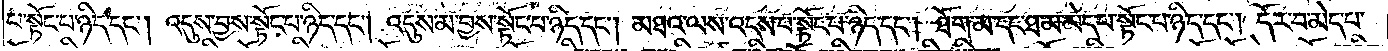པ་སྟོང་པ་ཉིད་དང༌། འདུས་བྱས་སྟོང་པ་ཉིད་དང༌། འདུས་མ་བྱས་སྟོང་པ་ཉིད་དང༌། མཐའ་ལས་འདས་པ་སྟོང་པ་ཉིད་དང༌། ཐོག་མ་དང་ཐ་མ་མེད་པ་སྟོང་པ་ཉིད་དང༌། དོར་བ་མེད་པ་
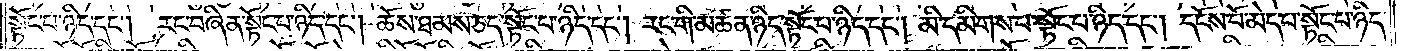སྟོང་པ་ཉིད་དང༌། རང་བཞིན་སྟོང་པ་ཉིད་དང༌། ཆོས་ཐམས་ཅད་སྟོང་པ་ཉིད་དང༌། རང་གི་མཚན་ཉིད་སྟོང་པ་ཉིད་དང༌། མི་དམིགས་པ་སྟོང་པ་ཉིད་དང༌། དངོས་པོ་མེད་པ་སྟོང་པ་ཉིད་
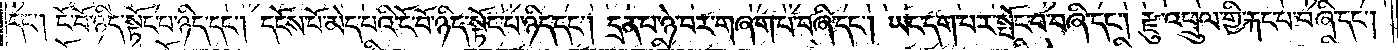དང༌། ངོ་བོ་ཉིད་སྟོང་པ་ཉིད་དང༌། དངོས་པོ་མེད་པའི་ངོ་བོ་ཉིད་སྟོང་པ་ཉིད་དང༌། དྲན་པ་ཉེ་བར་གཞག་པ་བཞི་དང༌། ཡང་དག་པར་སྤོང་བ་བཞི་དང༌། རྫུ་འཕྲུལ་གྱི་རྐང་པ་བཞི་དང༌།
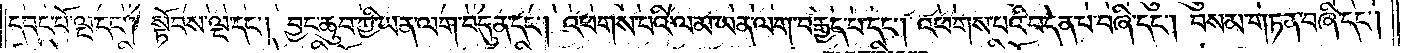དབང་པོ་ལྔ་དང༌། སྟོབས་ལྔ་དང༌། བྱང་ཆུབ་ཀྱི་ཡན་ལག་བདུན་དང༌། འཕགས་པའི་ལམ་ཡན་ལག་བརྒྱད་པ་དང༌། འཕགས་པའི་བདེན་པ་བཞི་དང༌། བསམ་གཏན་བཞི་དང༌།
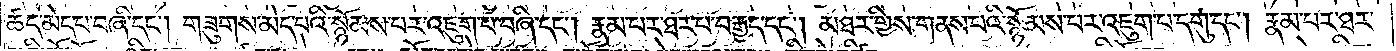ཚད་མེད་པ་བཞི་དང༌། གཟུགས་མེད་པའི་སྙོམས་པར་འཇུག་པ་བཞི་དང༌། རྣམ་པར་ཐར་པ་བརྒྱད་དང༌། མཐར་གྱིས་གནས་པའི་སྙོམས་པར་འཇུག་པ་དགུ་དང༌། རྣམ་པར་ཐར་
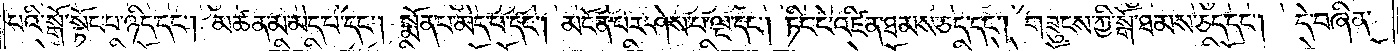པའི་སྒོ་སྟོང་པ་ཉིད་དང༌། མཚན་མ་མེད་པ་དང༌། སྨོན་པ་མེད་པ་དང༌། མངོན་པར་ཤེས་པ་ལྔ་དང༌། ཏིང་ངེ་འཛིན་ཐམས་ཅད་དང༌། གཟུངས་ཀྱི་སྒོ་ཐམས་ཅད་དང༌། དེ་བཞིན་
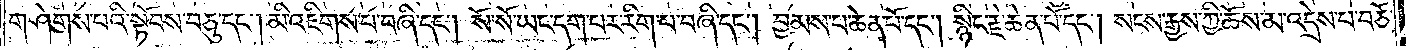གཤེགས་པའི་སྟོབས་བཅུ་དང༌། མི་འཇིགས་པ་བཞི་དང༌། སོ་སོ་ཡང་དག་པར་རིག་པ་བཞི་དང༌། བྱམས་པ་ཆེན་པོ་དང༌། སྙིང་རྗེ་ཆེན་པོ་དང༌། སངས་རྒྱས་ཀྱི་ཆོས་མ་འདྲེས་པ་བཅོ་
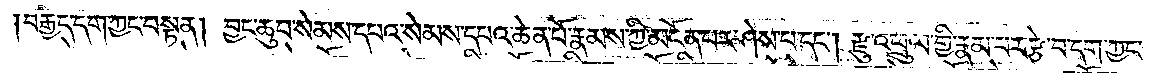བརྒྱད་དག་ཀྱང་བསྟན། བྱང་ཆུབ་སེམས་དཔའ་སེམས་དཔའ་ཆེན་པོ་རྣམས་ཀྱི་མངོན་པར་ཤེས་པ་དང༌། རྫུ་འཕྲུལ་གྱི་རྣམ་པར་རྩེ་བ་དག་ཀྱང་
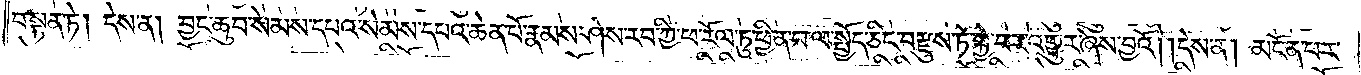བསྟན་ཏེ། དེས་ན། བྱང་ཆུབ་སེམས་དཔའ་སེམས་དཔའ་ཆེན་པོ་རྣམས་ཤེས་རབ་ཀྱི་ཕ་རོལ་ཏུ་ཕྱིན་པ་ལ་སྤྱོད་ཅིང༌། བརྫུས་ཏེ་སྐྱེ་བར་འགྱུར་ཞེས་བྱའོ། །དེས་ན། མངོན་པར་
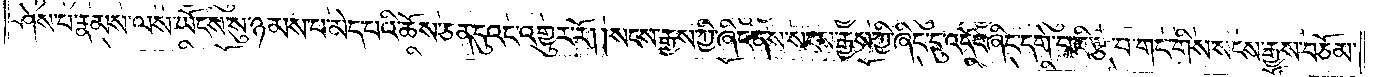ཤེས་པ་རྣམས་ལས་ཡོངས་སུ་ཉམས་པ་མེད་པའི་ཆོས་ཅན་དུའང་འགྱུར་རོ། །སངས་རྒྱས་ཀྱི་ཞིང་ནས་སངས་རྒྱས་ཀྱི་ཞིང་དུ་འདོང་ཞིང་དགེ་བའི་རྩ་བ་གང་གིས་སངས་རྒྱས་བཅོམ་
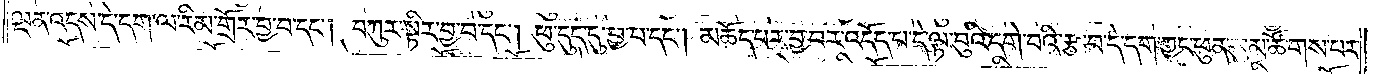ལྡན་འདས་དེ་དག་ལ་རིམ་གྲོར་བྱ་བ་དང༌། བཀུར་སྟིར་བྱ་བ་དང༌། ཕུ་དུད་དུ་བྱ་བ་དང༌། མཆོད་པར་བྱ་བར་འདོད་པ་དེ་ལྟ་བུའི་དགེ་བའི་རྩ་བ་དེ་དག་ཀྱང་ཕུན་སུམ་ཚོགས་པར་
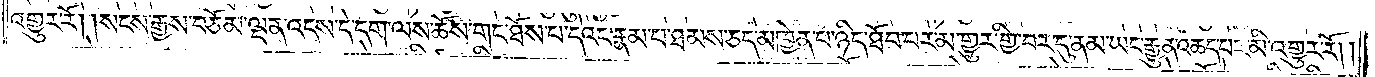འགྱུར་རོ། །སངས་རྒྱས་བཅོམ་ལྡན་འདས་དེ་དག་ལས་ཆོས་གང་ཐོས་པ་དེའང་རྣམ་པ་ཐམས་ཅད་མཁྱེན་པ་ཉིད་ཐོབ་པར་མ་གྱུར་གྱི་བར་དུ་ནམ་ཡང་རྒྱུན་ཆད་པར་མི་འགྱུར་རོ༎
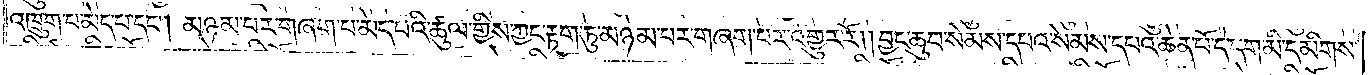འཁྲུག་པ་མེད་པ་དང༌། མཉམ་པར་གཞག་པ་མེད་པའི་ཚུལ་གྱིས་ཀྱང་རྟག་ཏུ་མཉམ་པར་བཞག་པར་འགྱུར་རོ། །བྱང་ཆུབ་སེམས་དཔའ་སེམས་དཔའ་ཆེན་པོ་དེ་དག་མི་དམིགས་
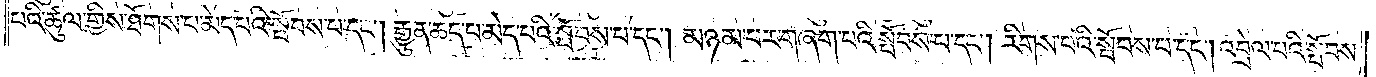པའི་ཚུལ་གྱིས་ཐོགས་པ་མེད་པའི་སྤོབས་པ་དང༌། རྒྱུན་ཆད་པ་མེད་པའི་སྤོབས་པ་དང༌། མཉམ་པར་གཞག་པའི་སྤོབས་པ་དང༌། རིགས་པའི་སྤོབས་པ་དང༌། འབྲེལ་པའི་སྤོབས་
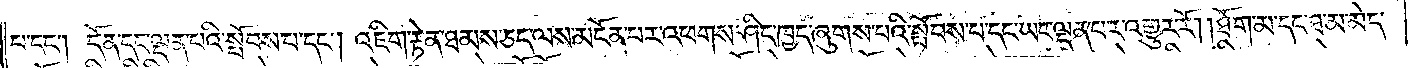པ་དང༌། དོན་དང་ལྡན་པའི་སྤོབས་པ་དང༌། འཇིག་རྟེན་ཐམས་ཅད་ལས་མངོན་པར་འཕགས་ཤིང་ཁྱད་ཞུགས་པའི་སྤོབས་པ་དང་ཡང་ལྡན་པར་འགྱུར་རོ། །ཐོག་མ་དང་ཐ་མ་མེད་
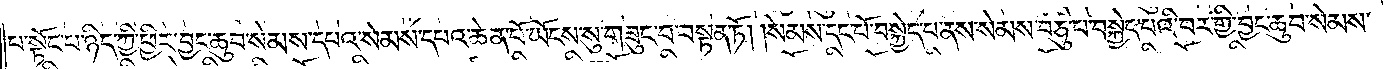པ་སྟོང་པ་ཉིད་ཀྱི་ཕྱིར་བྱང་ཆུབ་སེམས་དཔའ་སེམས་དཔའ་ཆེན་པོ་ཡོངས་སུ་བཟུང་བ་བསྟན་ཏོ། །སེམས་དང་པོ་བསྐྱེད་པ་ནས་སེམས་བཅུ་པ་བསྐྱེད་པའི་བར་གྱི་བྱང་ཆུབ་སེམས་
